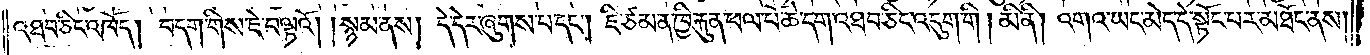འཐབ་ཅིང་འཁོད། བདག་གིས་ཇེ་བལྟའོ། །སྙམ་ནས། དེ་དེར་ཞུགས་པ་དང༌། ཇི་ཙམ་ན་ཁྱི་རྐུན་ཕལ་པོ་ཆེ་དག་འཐབ་ཅིང་འདུག་གི། མི་ནི། འགའ་ཡང་མེད་དེ་སྟོང་པར་མཐོང་ནས།
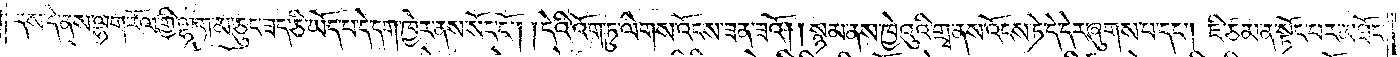དེས་དེ་ནས་ལྷག་རོལ་གྱི་ལྷག་མ་ཅུང་ཟད་ཅི་ཡོད་པ་དེ་དག་ཁྱེར་ནས་སོང་ངོ༌། །དེའི་འོག་ཏུ་ལེགས་འོངས་ཟན་ཟའོ། །སྙམ་ནས་ཁྱེའུའི་གྲྭ་ནས་འོངས་ཏེ་དེ་དེར་ཞུགས་པ་དང༌། ཇི་ཙམ་ན་སྟོང་པར་མཐོང་
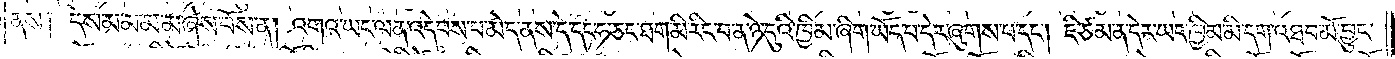ནས། དེས་མ་མ་མ་མ་ཞེས་བོས་ན། འགའ་ཡང་ལན་འདེབས་པ་མེད་ནས་དེ་དང་ཧ་ཅང་ཐག་མི་རིང་བ་ན་ཉེ་དུའི་ཁྱིམ་ཞིག་ཡོད་པ་དེར་ཞུགས་པ་དང༌། ཇི་ཙམ་ན་དེར་ཡང་ཁྱིམ་མི་དག་འཐབ་མོ་བྱུང་
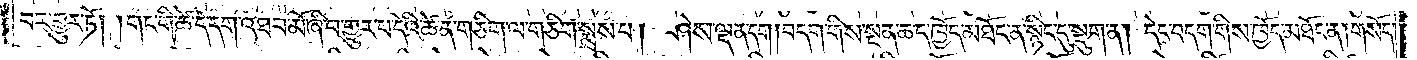བར་གྱུར་ཏོ། །གང་གི་ཚེ་དེ་དག་འཐབ་མོ་ཞི་བ་གྱུར་པ་དེའི་ཚེ་ན་གཅིག་ལ་གཅིག་སྨྲས་པ།  ཤེས་ལྡན་དག།བདག་གིས་སྔན་ཆད་ཁྱོད་མཐོང་ན་སྙིང་དུ་སྡུག་ན། དེང་བདག་གིས་ཁྱོད་མཐོང་ན། གསོད་
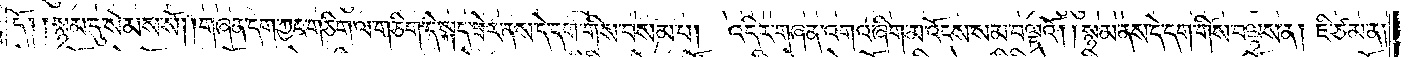དོ། །སྙམ་དུ་སེམས་སོ༎གཞན་དག་ཀྱང་གཅིག་ལ་གཅིག་དེ་སྐད་ཟེར་ནས་དེ་དག་གིས་བསམ་པ།  འདིར་གཞན་འགའ་ཞིག་མ་འོངས་སམ་བལྟའོ། །སྙམ་ནས་དེ་དག་གིས་བལྟས་ན། ཇི་ཙམ་ན་
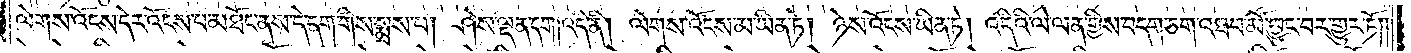ལེགས་འོངས་དེར་འོངས་པ་མཐོང་ནས་དེ་དག་གིས་སྨྲས་པ། ཤེས་ལྡན་དག།འདི་ནི། ལེགས་འོངས་མ་ཡིན་ཏེ། ཉེས་འོངས་ཡིན་ཏེ། འདིའི་ལེ་ལན་གྱིས་བདག་ཅག་འཐབ་མོ་བྱུང་བར་གྱུར་ཏོ༎
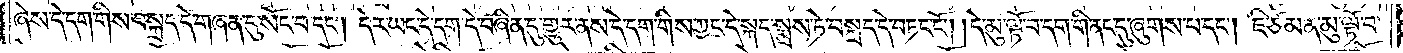ཞེས་དེ་དག་གིས་བསྐྲད་དེ་གཞན་དུ་སོང་བ་དང༌། དེར་ཡང་དེ་དག་དེ་བཞིན་དུ་གྱུར་ནས་དེ་དག་གིས་ཀྱང་དེ་སྐད་སྨྲས་ཏེ་བསྐྲད་དེ་བཏང་ངོ༌། །དེ་མུ་ལྟོ་བ་དག་གི་ནང་དུ་ཞུགས་པ་དང༌། ཇི་ཙམ་ན་མུ་ལྟོ་བ་
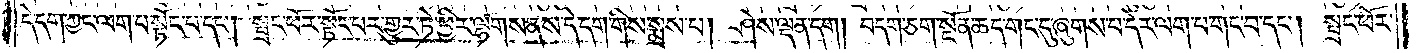དེ་དག་ཀྱང་ལག་པ་སྟོང་པ་དང༌། སྤྲང་ཕོར་སྟོང་པར་གྱུར་ཏེ་ཕྱིར་ལྷགས་ནས་དེ་དག་གིས་སྨྲས་པ། ཤེས་ལྡན་དག །བདག་ཅག་སྔོན་ཆད་གང་དུ་ཞུགས་པ་དེར་ལག་པ་གང་བ་དང༌། སྤྲང་ཕོར་
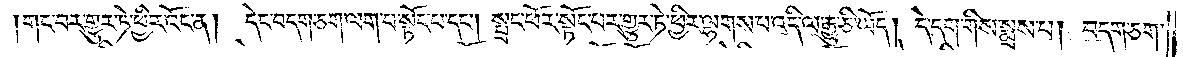གང་བར་གྱུར་ཏེ་ཕྱིར་འོང་ན།  དེང་བདག་ཅག་ལག་པ་སྟོང་པ་དང༌། སྤྲང་ཕོར་སྟོང་པར་གྱུར་ཏེ་ཕྱིར་ལྷགས་པ་འདི་ལ་རྒྱུ་ཅི་ཡོད། དེ་དག་གིས་སྨྲས་པ། བདག་ཅག་
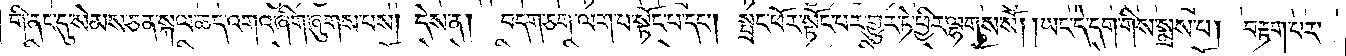གི་ནང་དུ་སེམས་ཅན་སྐལ་ཆད་འགའ་ཞིག་ཞུགས་པས། དེས་ན། བདག་ཅག་ལག་པ་སྟོང་པ་དང༌། སྤྲང་ཕོར་སྟོང་པར་གྱུར་ཏེ་ཕྱིར་ལྷགས་སོ། །ཡང་དེ་དག་གིས་སྨྲས་པ། བརྟག་པར་
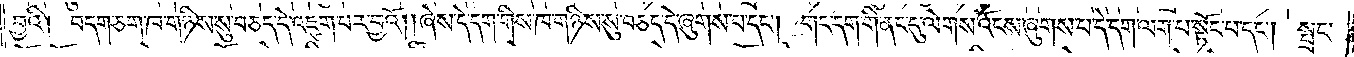བྱའི། བདག་ཅག་ཁ་གཉིས་སུ་བཅད་དེ་འཇུག་པར་བྱའོ༎ཞེས་དེ་དག་གིས་ཁ་གཉིས་སུ་བཅད་དེ་ཞུགས་པ་དང༌། གང་དག་གི་ནང་དུ་ལེགས་འོངས་ཞུགས་པ་དེ་དག་ལག་པ་སྟོང་པ་དང༌། སྤྲང་
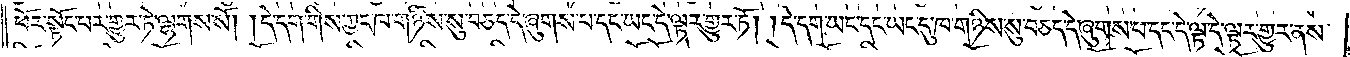ཕོར་སྟོང་པར་གྱུར་ཏེ་ལྷགས་སོ། །དེ་དག་གིས་ཀྱང་ཁ་གཉིས་སུ་བཅད་དེ་ཞུགས་པ་དང་ཡང་དེ་ལྟར་གྱུར་ཏོ། །དེ་དག་ཡང་དང་ཡང་དུ་ཁ་གཉིས་སུ་བཅད་དེ་ཞུགས་པ་དང་དེ་ལྟ་དེ་ལྟར་གྱུར་ནས་
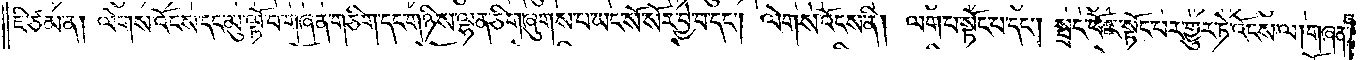ཇི་ཙམ་ན། ལེགས་འོངས་དང་མུ་ལྟོ་བ་གཞན་གཅིག་དང་གཉིས་ལྷན་ཅིག་ཞུགས་པ་ཡང་སོ་སོར་བྱེ་བ་དང༌། ལེགས་འོངས་ནི། ལག་པ་སྟོང་པ་དང༌། སྤྲང་ཕོར་སྟོང་པར་གྱུར་ཏེ་འོངས་ལ། གཞན་
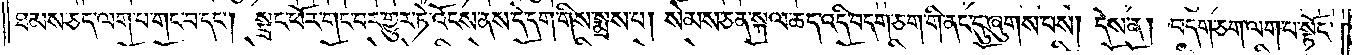ཐམས་ཅད་ལག་པ་གང་བ་དང༌། སྤྲང་ཕོར་གང་བར་གྱུར་ཏེ་འོངས་ནས་དེ་དག་གིས་སྨྲས་པ། སེམས་ཅན་སྐལ་ཆད་འདི་བདག་ཅག་གི་ནང་དུ་ཞུགས་པས། དེས་ན། བདག་ཅག་ལག་པ་སྟོང་
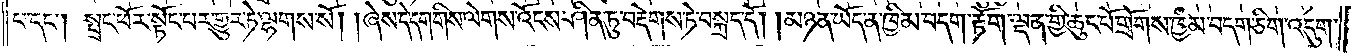པ་དང༌། སྤྲང་ཕོར་སྟོང་པར་གྱུར་ཏེ་ལྷགས་སོ། །ཞེས་དེ་དག་གིས་ལེགས་འོངས་ཤིན་ཏུ་བརྡེགས་ཏེ་བསྐྲད་དོ། །མཉན་ཡོད་ན་ཁྱིམ་བདག་རྟོག་ལྡན་གྱི་ཆུང་པོ་གྲོགས་ཁྱིམ་བདག་ཅིག་འདུག་
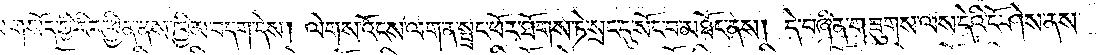གསོད་ཀྱི་རིར་ཕྱིན་ནས་ཁྱིམ་བདག་དེས། ལེགས་འོངས་ལག་ན་སྤྲང་ཕོར་ཐོགས་ཏེ་སྲང་དུ་སོང་བ་མཐོང་ནས། དེ་བཞིན་གཟུགས་ལས་དེའི་ངོ་ཤེས་ནས་
